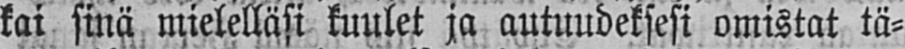kai sinä mielelläsi kuulet ja autuudeksesi omistat tä-
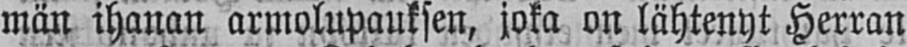män ihanan armolupauksen, joka on lähtenyt Herran
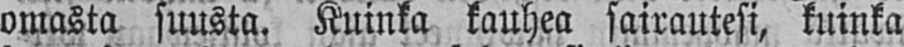omasta suusta. Kuinka kauhea sairautesi, kuinka
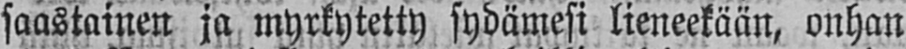saastainen ja myrkytetty sydämesi lieneekään, onhan
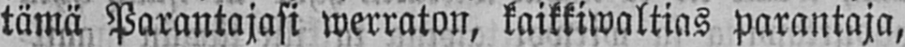tämä Parantajasi werraton, kaikkiwaltias parantaja,
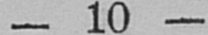— 10 —
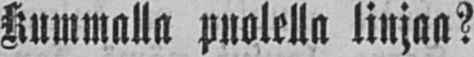Kummalla puolella linjaa?
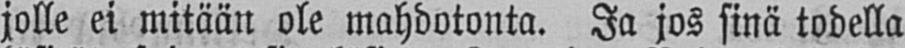jolle ei mitään ole mahdotonta. Ja jos sinä todella
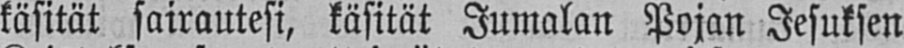käsität sairautesi, käsität Jumalan Pojan Jesuksen
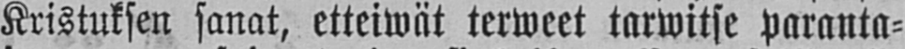Kristuksen sanat, etteiwät terweet tarwitse paranta-
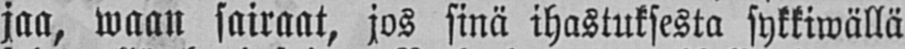jaa, waan sairaat, jos sinä ihastuksesta sykkiwällä
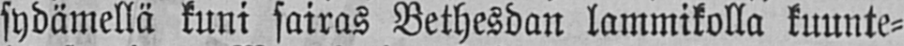sydämellä kuni sairas Bethesdan lammikolla kuunte-
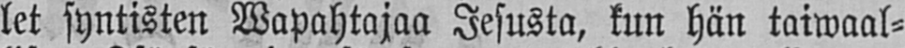let syntisten Wapahtajaa Jesusta, kun hän taiwaal-
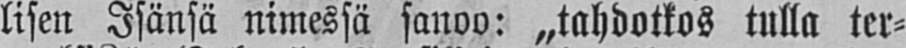lisen Isänsä nimessä sanoo: „tahdotkos tulla ter-
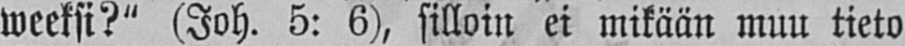weeksi?" (Joh. 5: 6), silloin ei mikään muu tieto
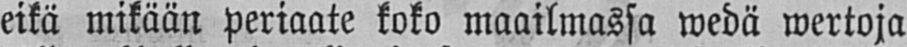eikä mikään periaate koko maailmassa wedä wertoja
